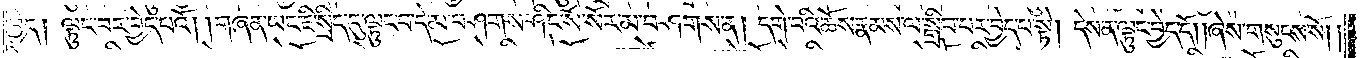བྱེད། ལྟུང་བར་བྱེད་པའོ། །གཞན་ཡང་ཇི་སྲིད་དུ་ལྟུང་བ་དེ་མ་བཤགས་ཤིང་སོ་སོར་མ་བཤགས་ན། དགེ་བའི་ཆོས་རྣམས་ལ་སྒྲིབ་པར་བྱེད་པ་སྟེ། དེས་ན་ལྟུང་བྱེད་དོ། །ཞེས་གསུངས་སོ། །
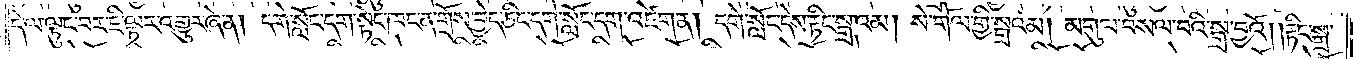དེ་ལ་ལྟུང་བར་ཇི་ལྟར་འགྱུར་ཞེ་ན། དགེ་སློང་དག་སྟེང་ཁང་ན་གྲོས་བྱེད་ཅིང་དགེ་སློང་དག་འཛེག་ན། དགེ་སློང་དེས་རྟིང་སྒྲའམ། སེ་གོལ་གྱི་སྒྲའམ། མགུལ་བསལ་བའི་སྒྲ་བྱའོ། །རྟིང་སྒྲ་
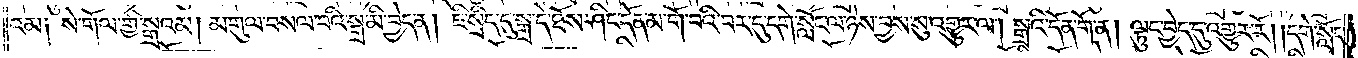འམ། སེ་གོལ་གྱི་སྒྲའམ། མགུལ་བསལ་བའི་སྒྲ་མི་བྱེད་ན། ཇི་སྲིད་དུ་སྒྲ་དེ་ཐོས་ཤིང་དོན་མ་གོ་བའི་བར་དུ་དགེ་སློང་ལ་ཉེས་བྱས་སུ་འགྱུར་ལ། སྒྲའི་དོན་གོ་ན། ལྟུང་བྱེད་དུ་འགྱུར་རོ། །དགེ་སློང་
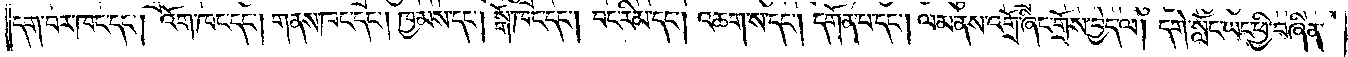དག་པར་ཁང་དང༌། འོག་ཁང་དང༌། གནས་ཁང་དང༌། ཁྱམས་དང༌། སྒོ་ཁང་དང༌། བང་རིམ་དང༌། འཆག་ས་དང༌། དགོན་པ་དང༌། ལམ་ནས་འགྲོ་ཞིང་གྲོས་བྱེད་ལ། དགེ་སློང་ཡང་ཕྱི་བཞིན་
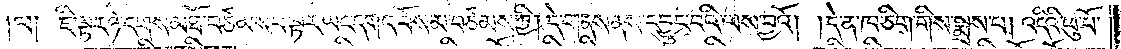ལ༑ ཇི་ལྟར་ཉེ་དགས་མཐོ་བཙམས་པ་ལྟར་ཡང་དགའ་བོས་མ་བཙམས་ཀྱི། དེ་གནས་ནས་དབྱུང་བའི་ལས་བྱའོ། །དེ་ན་ཁ་ཅིག་གིས་སྨྲས་པ། འདིའི་ཕུ་བོ་
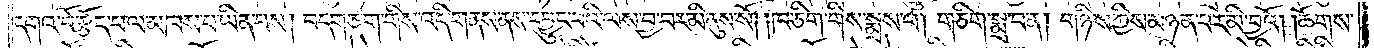དགའ་བོ་རྩོད་པ་ལ་མཁས་པ་ཡིན་པས། བདག་ཅག་གིས་འདི་གནས་ནས་དབྱུང་བའི་ལས་བྱ་བར་མི་ནུས་སོ། །ཁ་ཅིག་གིས་སྨྲས་པ། གཅིག་སྨྲ་བ་ན། གཉིས་ཀྱིས་མཉན་པར་མི་བྱའོ། །ཆོགས་
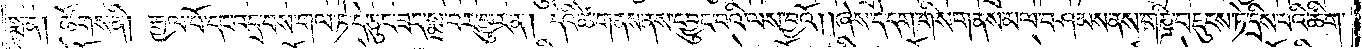སྨྲ་ན། ཚོགས་ནི། རྒྱལ་པོ་དང་འདྲ་བས་གལ་ཏེ་དེ་ཅུང་ཟད་སྨྲ་བར་གྱུར་ན། དེའི་ཚེ་གནས་ནས་དབྱུང་བའི་ལས་བྱའོ། །ཞེས་དེ་དག་གིས་གནས་མལ་བཤམས་ནས་གཎྜི་བརྡུངས་ཏེ་དྲིས་པའི་ཚིག་
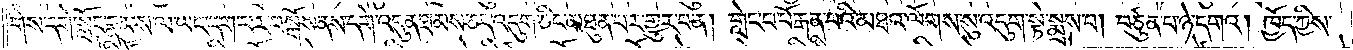གིས་དགེ་སློང་རྣམས་ལ་ཡང་དག་པར་བསྒོས་ནས་དགེ་འདུན་ཐམས་ཅད་འདུག་ཅིང་མཐུན་པར་གྱུར་པ་ན། གླེང་པ་པོ་རྒན་པའི་མཐའ་ལོགས་སུ་འདུག་སྟེ་སྨྲས་པ། བཙུན་པ་ཉེ་དགའ། ཁྱོད་ཀྱིས་
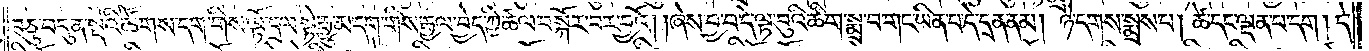བཅུ་བདུན་སྡེའི་ཚོགས་དག་གིས་ལྟོ་དྲལ་སྟེ་རྒྱུ་མ་དག་གིས་རྒྱལ་བྱེད་ཀྱི་ཚལ་བསྐོར་བར་བྱའོ། །ཞེས་བྱ་བ་དེ་ལྟ་བུའི་ཚིག་སྨྲ་བ་གང་ཡིན་པ་དེ་དྲན་ནམ། ཉེ་དགས་སྨྲས་པ། ཚེ་དང་ལྡན་པ་དག །དེ་
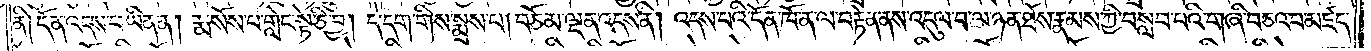ནི། དོན་འདས་པ་ཡིན་ན། རྨ་སོས་པ་གླེང་སྟེ་ཅི་བྱ། དེ་དག་གིས་སྨྲས་པ། བཅོམ་ལྡན་འདས་ནི། འདས་པའི་དོན་ཁོ་ན་ལ་བརྟེན་ནས་འདུལ་བ་ལ་ཉན་ཐོས་རྣམས་ཀྱི་བསླབ་པའི་གཞི་བཅའ་བ་མཛད་
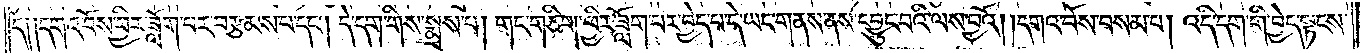དོ༑ ༑དགའ་བོས་ཕྱིར་ཟློག་པར་བརྩམས་པ་དང༌། དེ་དག་གིས་སྨྲས་པ། གང་གཅིག་ཕྱིར་ཟློག་པར་བྱེད་པ་དེ་ཡང་གནས་ནས་དབྱུང་བའི་ལས་བྱའོ། །དགའ་བོས་བསམ་པ། འདི་དག་གི་བྱེད་སྟངས་
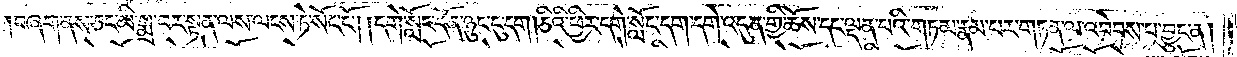བཞག་ནས་ཅང་མི་སྨྲ་བར་སྟན་ལས་ལངས་ཏེ་སོང་ངོ༌། །དགེ་སློང་དོན་ཉུང་ངུ་དག །ཅིའི་ཕྱིར་དགེ་སློང་དག་དགེ་འདུན་གྱི་ཆོས་དང་ལྡན་པའི་གཏམ་རྣམ་པར་གཏན་ལ་འབེབས་པར་བྱུང་ན།
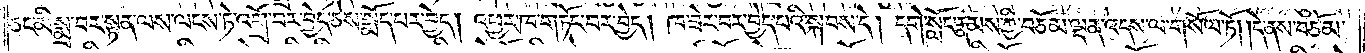ཅང་མི་སྨྲ་བར་སྟན་ལས་ལངས་ཏེ་འགྲོ་བར་བྱེད་ཅེས་སྨོད་པར་བྱེད། འཕྱར་ཁ་གཏོང་བར་བྱེད། ཁ་ཟེར་བར་བྱེད་པའི་སྐབས་དེ། དགེ་སློང་རྣམས་ཀྱི་བཅོམ་ལྡན་འདས་ལ་གསོལ་ཏོ། །དེ་ནས་བཅོམ་
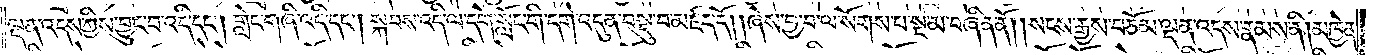ལྡན་འདས་ཀྱིས་བྱུང་བ་འདི་དང༌། གླེང་གཞི་འདི་དང༌། སྐབས་འདི་ལ་དགེ་སློང་གི་དགེ་འདུན་བསྡུ་བ་མཛད་དོ། །ཞེས་བྱ་བ་ལ་སོགས་པ་སྔ་མ་བཞིན་ནོ། །སངས་རྒྱས་བཅོམ་ལྡན་འདས་རྣམས་ནི། །མཁྱེན་
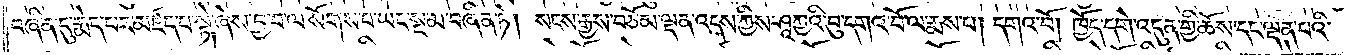བཞིན་དུ་རྨེད་པར་མཛད་པ་སྟེ་ཞེས་བྱ་བ་ལ་སོགས་པ་ཡང་སྔ་མ་བཞིན་ཏེ། སངས་རྒྱས་བཅོམ་ལྡན་འདས་ཀྱིས་ཤཱཀྱའི་བུ་དགའ་བོ་ལ་རྨས་པ། དགའ་བོ། ཁྱོད་དགེ་འདུན་གྱི་ཆོས་དང་ལྡན་པའི་
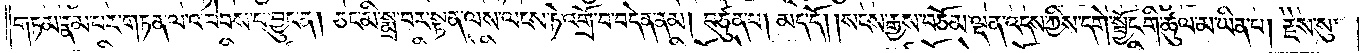གཏམ་རྣམ་པར་གཏན་ལ་འབེབས་པ་བྱུང་ན། ཅང་མི་སྨྲ་བར་སྟན་ལས་ལངས་ཏེ་འགྲོ་བ་བདེན་ནམ། བཙུན་པ། མད་དོ། །སངས་རྒྱས་བཅོམ་ལྡན་འདས་ཀྱིས་དགེ་སྦྱོང་གི་ཚུལ་མ་ཡིན་པ། རྗེས་སུ་
